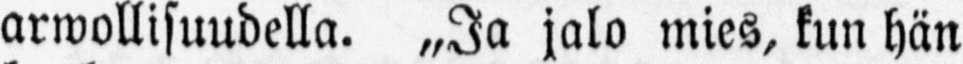arwollisuudella. „Ja jalo mies, kuu hän
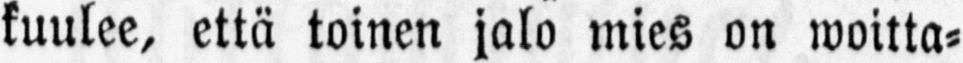kuulee, että toinen jalo mies on woitta-
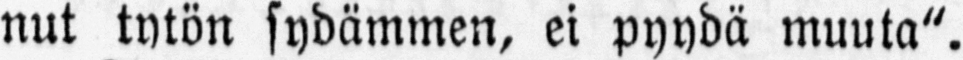nut tytön sydämmen, ei pyydä muuta".
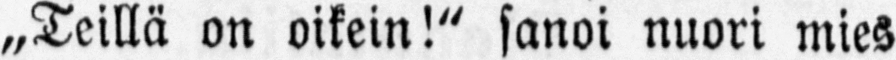„Teillä on oikein!" sanoi nuori mies
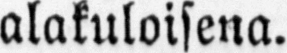alakuloisena.
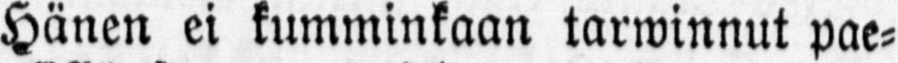Hänen ei kumminkaan tarwinnut pae-
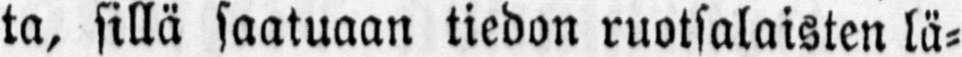ta, sillä saatuaan tiedon ruotsalaisten lä-
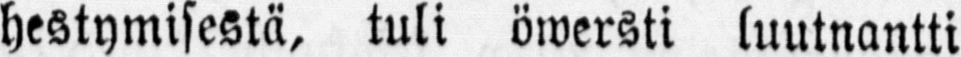hestymisestä, tuli öwersti luutnantti
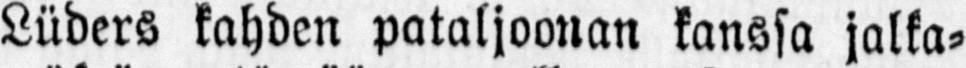Lüders kahden pataljoonan kanssa jalka-
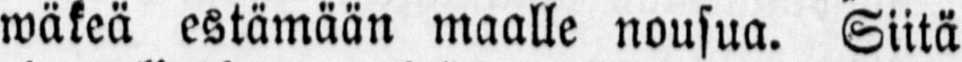wäkeä estämään maalle nousua. Siitä
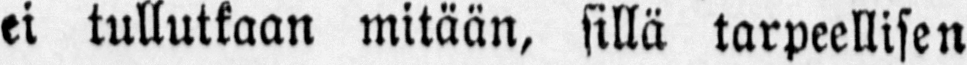ei tullutkaan mitään, sillä tarpeellisen
